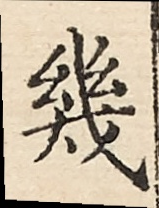幾
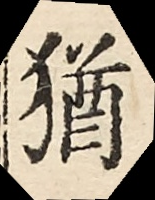猶
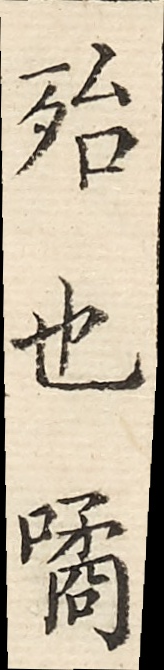殆也噊
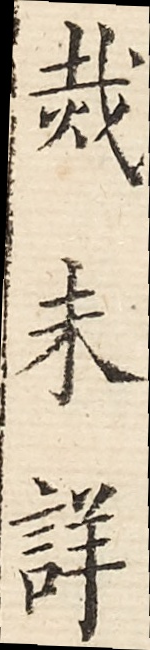烖未詳
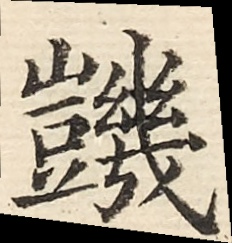𧰙
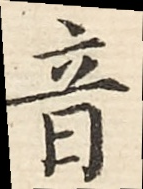音
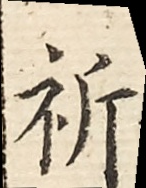祈
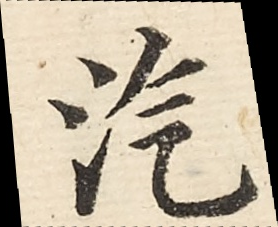汽
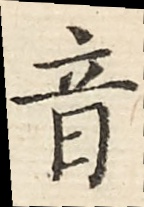音
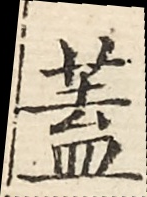蓋
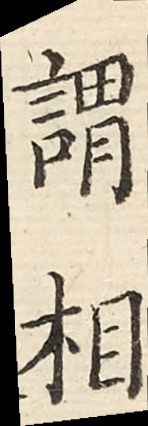謂相
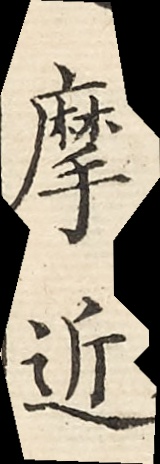摩近
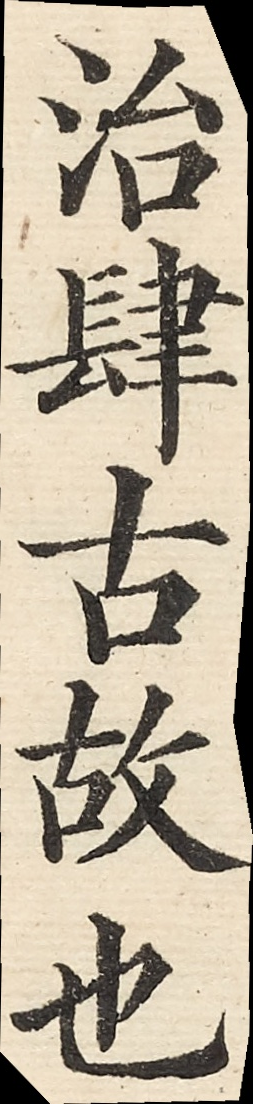治肆古故也
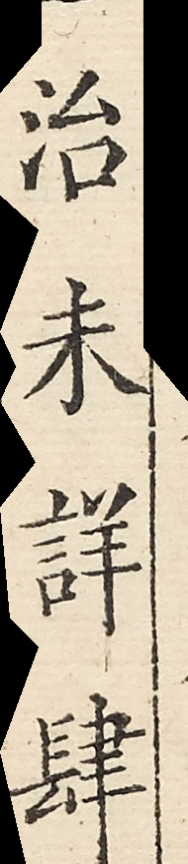治未詳肆
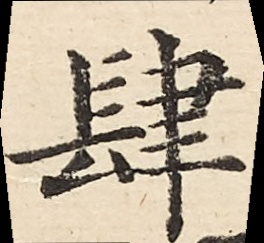肆
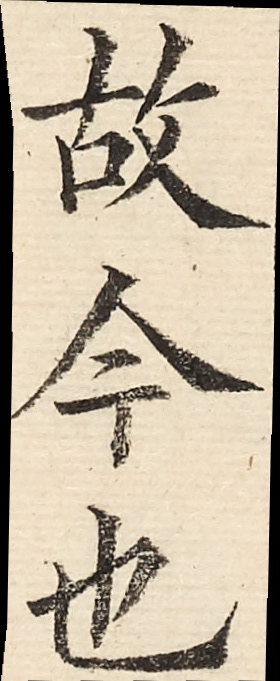故今也
